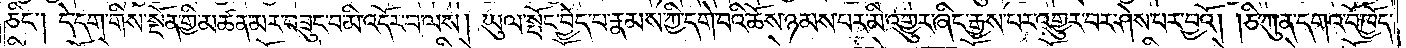ཅིང༌། དེ་དག་གིས་སྔོན་གྱི་མཚན་མར་བཟུང་བ་མི་འདོར་བ་ལས། ཡུལ་སྤོང་བྱེད་པ་རྣམས་ཀྱི་དགེ་བའི་ཆོས་ཉམས་པར་མི་འགྱུར་ཞིང་རྒྱས་པར་འགྱུར་བར་ཤེས་པར་བྱའོ། །ཅི་ཀུན་དགའ་བོ་ཁྱོད་
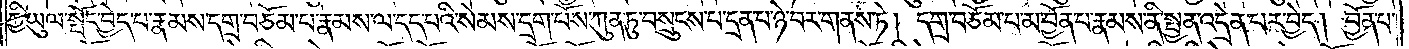ཀྱི་ཡུལ་སྤོང་བྱེད་པ་རྣམས་དགྲ་བཅོམ་པ་རྣམས་ལ་དད་པའི་སེམས་དྲག་པོས་ཀུན་ཏུ་བསྲུངས་པ་དྲན་པ་ཉེ་བར་གནས་ཏེ། དགྲ་བཅོམ་པ་མ་བྱོན་པ་རྣམས་ནི་སྤྱན་འདྲེན་པར་བྱེད། བྱོན་པ་
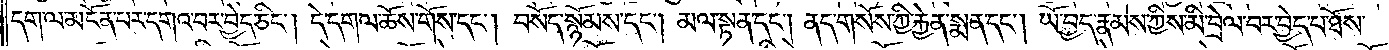དག་ལ་མངོན་པར་དགའ་བར་བྱེད་ཅིང༌། དེ་དག་ལ་ཆོས་གོས་དང༌། བསོད་སྙོམས་དང༌། མལ་སྟན་དང༌། ནད་གསོས་ཀྱི་རྐྱེན་སྨན་དང༌། ཡོ་བྱད་རྣམས་ཀྱིས་མི་བྲེལ་བར་བྱེད་པ་ཐོས་
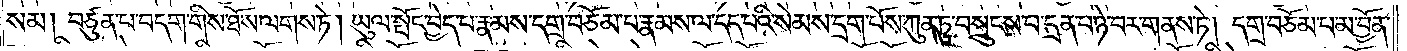སམ། བཙུན་པ་བདག་གིས་ཐོས་ལགས་ཏེ། ཡུལ་སྤོང་བྱེད་པ་རྣམས་དགྲ་བཅོམ་པ་རྣམས་ལ་དད་པའི་སེམས་དྲག་པོས་ཀུན་ཏུ་བསྲུངས་པ་དྲན་པ་ཉེ་བར་གནས་ཏེ། དགྲ་བཅོམ་པ་མ་བྱོན་
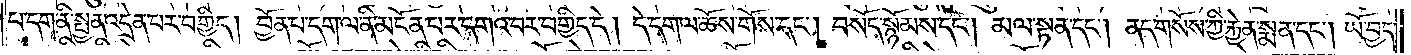པ་དག་ནི་སྤྱན་འདྲེན་པར་བགྱིད། བྱོན་པ་དག་ལ་ནི་མངོན་པར་དགའ་བར་བགྱིད་དེ། དེ་དག་ལ་ཆོས་གོས་དང༌། བསོད་སྙོམས་དང༌། མལ་སྟན་དང༌། ནད་གསོས་ཀྱི་རྐྱེན་སྨན་དང༌། ཡོ་བྱད་
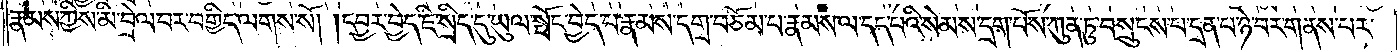རྣམས་ཀྱིས་མི་བྲེལ་བར་བགྱིད་ལགས་སོ། །དབྱར་བྱེད་ཇི་སྲིད་དུ་ཡུལ་སྤོང་བྱེད་པ་རྣམས་དགྲ་བཅོམ་པ་རྣམས་ལ་དད་པའི་སེམས་དྲག་པོས་ཀུན་ཏུ་བསྲུངས་པ་དྲན་པ་ཉེ་བར་གནས་པར་
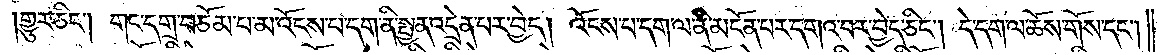གྱུར་ཅིང༌། གང་དགྲ་བཅོམ་པ་མ་འོངས་པ་དག་ནི་སྤྱན་འདྲེན་པར་བྱེད། འོངས་པ་དག་ལ་ནི་མངོན་པར་དགའ་བར་བྱེད་ཅིང༌། དེ་དག་ལ་ཆོས་གོས་དང༌།
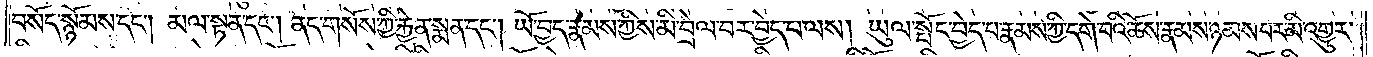བསོད་སྙོམས་དང༌། མལ་སྟན་དང༌། ནད་གསོས་ཀྱི་རྐྱེན་སྨན་དང༌། ཡོ་བྱད་རྣམས་ཀྱིས་མི་བྲེལ་བར་བྱེད་པ་ལས། ཡུལ་སྤོང་བྱེད་པ་རྣམས་ཀྱི་དགེ་བའི་ཆོས་རྣམས་ཉམས་པར་མི་འགྱུར་
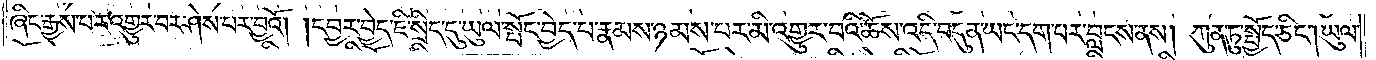ཞིང་རྒྱས་པར་འགྱུར་བར་ཤེས་པར་བྱའོ། །དབྱར་བྱེད་ཇི་སྲིད་དུ་ཡུལ་སྤོང་བྱེད་པ་རྣམས་ཉམས་པར་མི་འགྱུར་བའི་ཆོས་འདི་བདུན་ཡང་དག་པར་བླངས་ནས། ཀུན་ཏུ་སྤྱོད་ཅིང༌། ཡུལ་
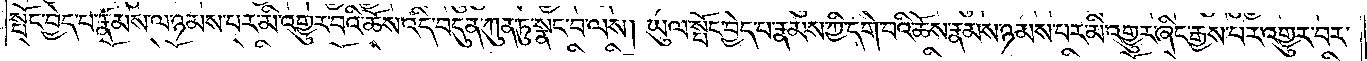སྤོང་བྱེད་པ་རྣམས་ལ་ཉམས་པར་མི་འགྱུར་བའི་ཆོས་འདི་བདུན་ཀུན་ཏུ་སྣང་བ་ལས། ཡུལ་སྤོང་བྱེད་པ་རྣམས་ཀྱི་དགེ་བའི་ཆོས་རྣམས་ཉམས་པར་མི་འགྱུར་ཞིང་རྒྱས་པར་འགྱུར་བར་
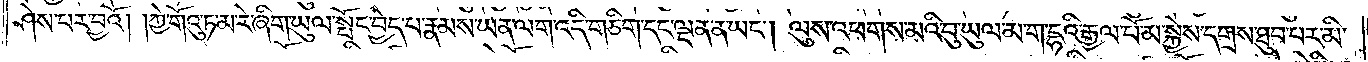ཤེས་པར་བྱའོ། །ཀྱེ་གོའུ་ཏ་མ་རེ་ཞིག་ཡུལ་སྤོང་བྱེད་པ་རྣམས་ཡན་ལག་འདི་གཅིག་དང་ལྡན་ན་ཡང༌། ལུས་འཕགས་མའི་བུ་ཡུལ་མ་ག་དྷའི་རྒྱལ་པོ་མ་སྐྱེས་དགྲས་ཐུབ་པར་མི་
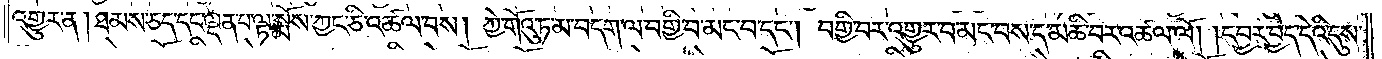འགྱུར་ན། ཐམས་ཅད་དང་ལྡན་པ་ལྟ་སྨོས་ཀྱང་ཅི་འཚལ་བས། ཀྱེ་གོའུ་ཏ་མ་བདག་ལ་བགྱི་བ་མང་པ་དང༌། བགྱི་བར་འགྱུར་བ་མང་བས་ད་མཆི་བར་འཚལ་ལོ། །དབྱར་བྱེད་དེའི་དུས་
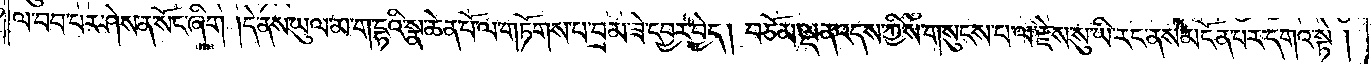ལ་བབ་པར་ཤེས་ན་སོང་ཞིག །དེ་ནས་ཡུལ་མ་ག་དྷའི་སྣ་ཆེན་པོ་ལ་གཏོགས་པ་བྲམ་ཟེ་དབྱར་བྱེད། བཅོམ་ལྡན་འདས་ཀྱིས་གསུངས་པ་ལ་རྗེས་སུ་ཡི་རང་ནས་མངོན་པར་དགའ་སྟེ།
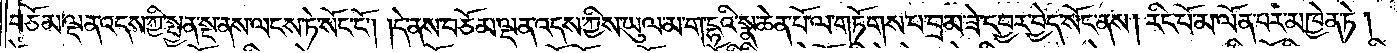བཅོམ་ལྡན་འདས་ཀྱི་སྤྱན་སྔ་ནས་ལངས་ཏེ་སོང་ངོ༌། །དེ་ནས་བཅོམ་ལྡན་འདས་ཀྱིས་ཡུལ་མ་ག་དྷའི་སྣ་ཆེན་པོ་ལ་གཏོགས་པ་བྲམ་ཟེ་དབྱར་བྱེད་སོང་ནས། རིང་པོ་མ་ལོན་པར་མཁྱེན་ཏེ།
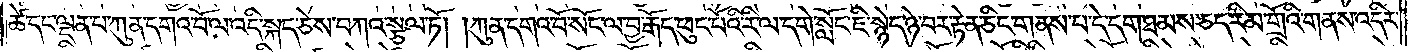ཚེ་དང་ལྡན་པ་ཀུན་དགའ་བོ་ལ་འདི་སྐད་ཅེས་བཀའ་སྩལ་ཏོ། །ཀུན་དགའ་བོ་སོང་ལ་བྱ་རྒོད་ཕུང་པོའི་རི་ལ་དགེ་སློང་ཇི་སྙེད་ཉེ་བར་རྟེན་ཅིང་གནས་པ་དེ་དག་ཐམས་ཅད་རིམ་གྲོའི་གནས་འདིར་
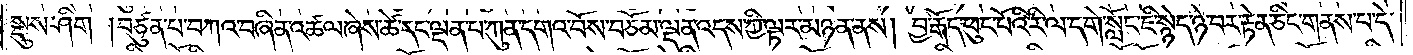སྡུས་ཤིག །བཙུན་པ་བཀའ་བཞིན་འཚལ་ཞེས་ཚེ་དང་ལྡན་པ་ཀུན་དགའ་བོས་བཅོམ་ལྡན་འདས་ཀྱི་ལྟར་མཉན་ནས། བྱ་རྒོད་ཕུང་པོའི་རི་ལ་དགེ་སློང་ཇི་སྙེད་ཉེ་བར་རྟེན་ཅིང་གནས་པ་དེ་
